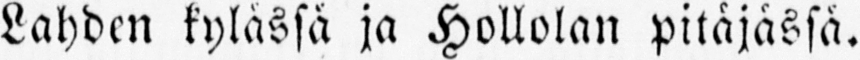Lahden kylässä ja Hollolan pitäjässä.
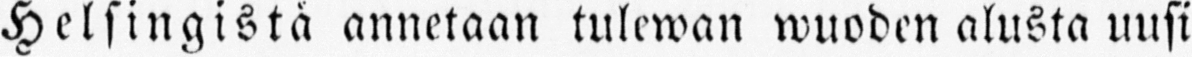Helsingistä annetaan tulewan wuoden alusta uusi
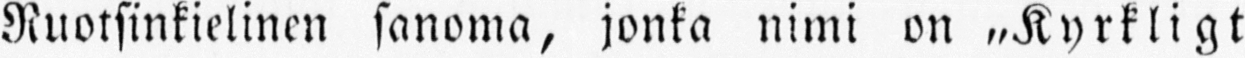Ruotsinkielinen sanoma, jonka nimi on „Kyrkligt
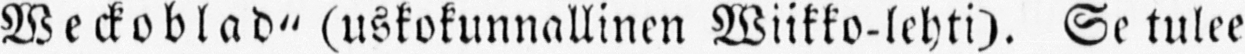Weckoblad" (uskokunnallinen Wiikko-lehti). Se tulee
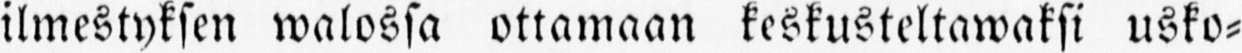ilmestyksen walossa ottamaan keskusteltawaksi usko-
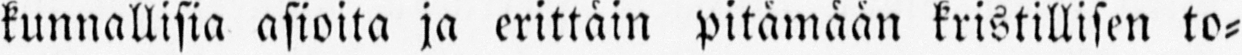kunnallisia asioita ja erittäin pitämään kristillisen to-
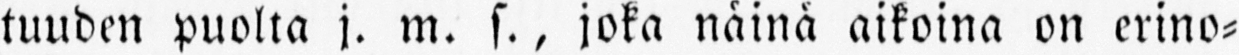tuuden puolta j. m. s., joka näinä aikoina on erino-
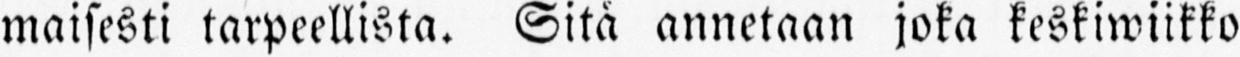maisesti tarpeellista. Sitä annetaan joka keskiwiikko
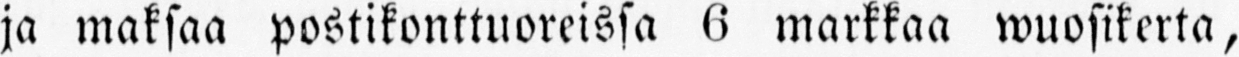ja maksaa postikonttuoreissa 6 markkaa wuosikerta,
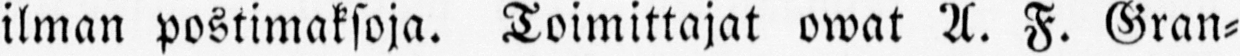ilman postimaksoja. Toimittajat owat A. F. Gran-
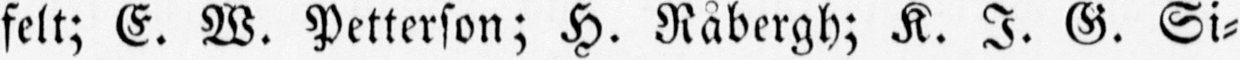felt; E. W. Petterson; H. Råbergh; K. I. G. Si-
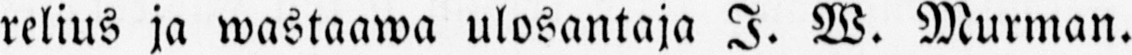relius ja wastaawa ulosantaja I. W. Murman.
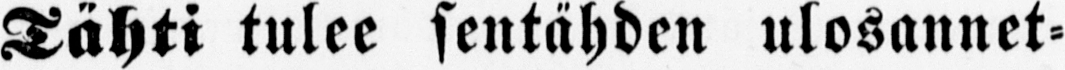Tähti tulee sentähden ulosannet-
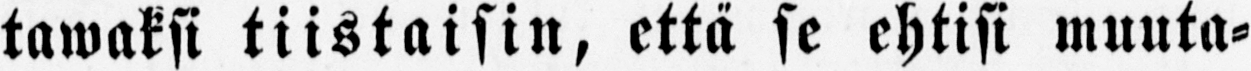tawaksi tiistaisin, että se ehtisi muuta-
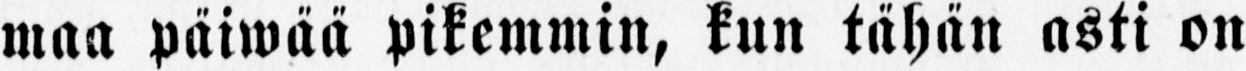maa päiwää pikemmin, kun tähän asti on
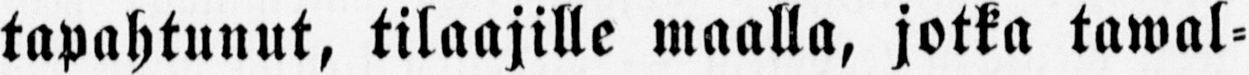tapahtunut, tilaajille maalla, jotka tawal-
